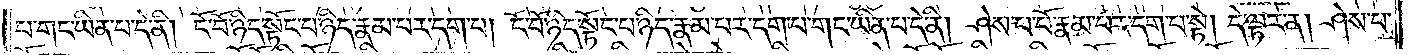པ་གང་ཡིན་པ་དེ་ནི། ངོ་བོ་ཉིད་སྟོང་པ་ཉིད་རྣམ་པར་དག་པ། ངོ་བོ་ཉིད་སྟོང་པ་ཉིད་རྣམ་པར་དག་པ་གང་ཡིན་པ་དེ་ནི། ཤེས་པ་པོ་རྣམ་པར་དག་པ་སྟེ། དེ་ལྟར་ན། ཤེས་པ་
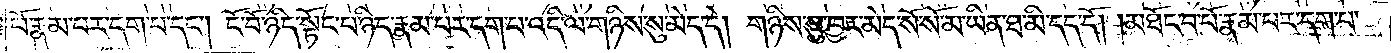པོ་རྣམ་པར་དག་པ་དང༌། ངོ་བོ་ཉིད་སྟོང་པ་ཉིད་རྣམ་པར་དག་པ་འདི་ལ་གཉིས་སུ་མེད་དེ། གཉིས་སུ་བྱར་མེད་སོ་སོ་མ་ཡིན་ཐ་མི་དད་དོ། །མཐོང་བ་པོ་རྣམ་པར་དག་པ་
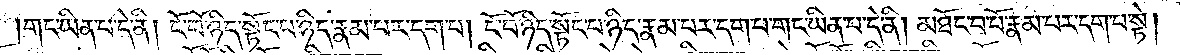གང་ཡིན་པ་དེ་ནི། ངོ་བོ་ཉིད་སྟོང་པ་ཉིད་རྣམ་པར་དག་པ། ངོ་བོ་ཉིད་སྟོང་པ་ཉིད་རྣམ་པར་དག་པ་གང་ཡིན་པ་དེ་ནི། མཐོང་བ་པོ་རྣམ་པར་དག་པ་སྟེ།
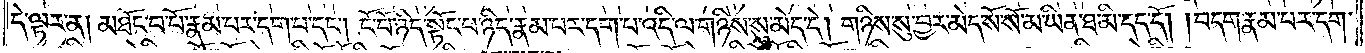དེ་ལྟར་ན། མཐོང་བ་པོ་རྣམ་པར་དག་པ་དང༌། ངོ་བོ་ཉིད་སྟོང་པ་ཉིད་རྣམ་པར་དག་པ་འདི་ལ་གཉིས་སུ་མེད་དེ། གཉིས་སུ་བྱར་མེད་སོ་སོ་མ་ཡིན་ཐ་མི་དད་དོ། །བདག་རྣམ་པར་དག་
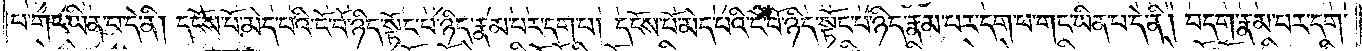པ་གང་ཡིན་པ་དེ་ནི། དངོས་པོ་མེད་པའི་ངོ་བོ་ཉིད་སྟོང་པ་ཉིད་རྣམ་པར་དག་པ། དངོས་པོ་མེད་པའི་ངོ་བོ་ཉིད་སྟོང་པ་ཉིད་རྣམ་པར་དག་པ་གང་ཡིན་པ་དེ་ནི། བདག་རྣམ་པར་དག་
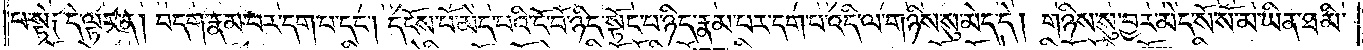པ་སྟེ། དེ་ལྟར་ན། བདག་རྣམ་པར་དག་པ་དང༌། དངོས་པོ་མེད་པའི་ངོ་བོ་ཉིད་སྟོང་པ་ཉིད་རྣམ་པར་དག་པ་འདི་ལ་གཉིས་སུ་མེད་དེ། གཉིས་སུ་བྱར་མེད་སོ་སོ་མ་ཡིན་ཐ་མི་
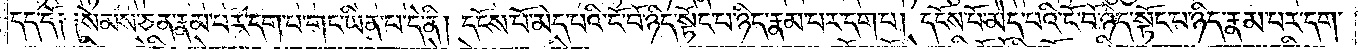དད་དོ། །སེམས་ཅན་རྣམ་པར་དག་པ་གང་ཡིན་པ་དེ་ནི། དངོས་པོ་མེད་པའི་ངོ་བོ་ཉིད་སྟོང་པ་ཉིད་རྣམ་པར་དག་པ། དངོས་པོ་མེད་པའི་ངོ་བོ་ཉིད་སྟོང་པ་ཉིད་རྣམ་པར་དག་
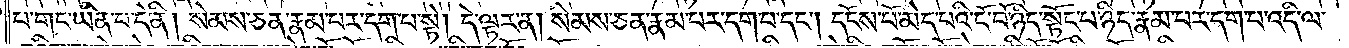པ་གང་ཡིན་པ་དེ་ནི། སེམས་ཅན་རྣམ་པར་དག་པ་སྟེ། དེ་ལྟར་ན། སེམས་ཅན་རྣམ་པར་དག་པ་དང༌། དངོས་པོ་མེད་པའི་ངོ་བོ་ཉིད་སྟོང་པ་ཉིད་རྣམ་པར་དག་པ་འདི་ལ་
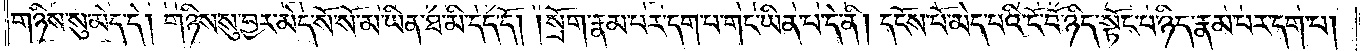གཉིས་སུ་མེད་དེ། གཉིས་སུ་བྱར་མེད་སོ་སོ་མ་ཡིན་ཐ་མི་དད་དོ། །སྲོག་རྣམ་པར་དག་པ་གང་ཡིན་པ་དེ་ནི། དངོས་པོ་མེད་པའི་ངོ་བོ་ཉིད་སྟོང་པ་ཉིད་རྣམ་པར་དག་པ།
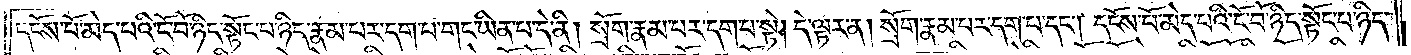དངོས་པོ་མེད་པའི་ངོ་བོ་ཉིད་སྟོང་པ་ཉིད་རྣམ་པར་དག་པ་གང་ཡིན་པ་དེ་ནི། སྲོག་རྣམ་པར་དག་པ་སྟེ། དེ་ལྟར་ན། སྲོག་རྣམ་པར་དག་པ་དང༌། དངོས་པོ་མེད་པའི་ངོ་བོ་ཉིད་སྟོང་པ་ཉིད་
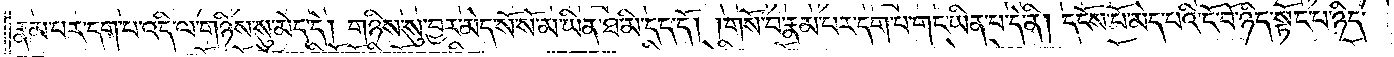རྣམ་པར་དག་པ་འདི་ལ་གཉིས་སུ་མེད་དེ། གཉིས་སུ་བྱར་མེད་སོ་སོ་མ་ཡིན་ཐ་མི་དད་དོ། །གསོ་བ་རྣམ་པར་དག་པ་གང་ཡིན་པ་དེ་ནི། དངོས་པོ་མེད་པའི་ངོ་བོ་ཉིད་སྟོང་པ་ཉིད་
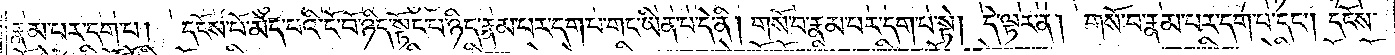རྣམ་པར་དག་པ། དངོས་པོ་མེད་པའི་ངོ་བོ་ཉིད་སྟོང་པ་ཉིད་རྣམ་པར་དག་པ་གང་ཡིན་པ་དེ་ནི། གསོ་བ་རྣམ་པར་དག་པ་སྟེ། དེ་ལྟར་ན། གསོ་བ་རྣམ་པར་དག་པ་དང༌། དངོས་
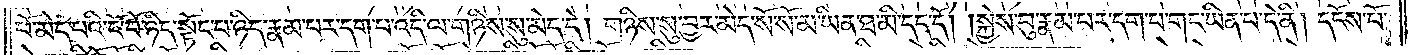པོ་མེད་པའི་ངོ་བོ་ཉིད་སྟོང་པ་ཉིད་རྣམ་པར་དག་པ་འདི་ལ་གཉིས་སུ་མེད་དེ། གཉིས་སུ་བྱར་མེད་སོ་སོ་མ་ཡིན་ཐ་མི་དད་དོ། །སྐྱེས་བུ་རྣམ་པར་དག་པ་གང་ཡིན་པ་དེ་ནི། དངོས་པོ་
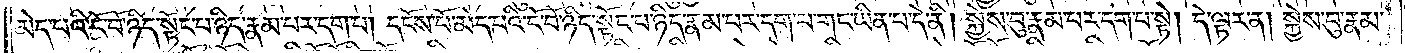མེད་པའི་ངོ་བོ་ཉིད་སྟོང་པ་ཉིད་རྣམ་པར་དག་པ། དངོས་པོ་མེད་པའི་ངོ་བོ་ཉིད་སྟོང་པ་ཉིད་རྣམ་པར་དག་པ་གང་ཡིན་པ་དེ་ནི། སྐྱེས་བུ་རྣམ་པར་དག་པ་སྟེ། དེ་ལྟར་ན། སྐྱེས་བུ་རྣམ་
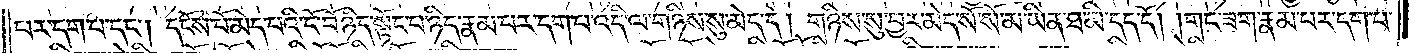པར་དག་པ་དང༌། དངོས་པོ་མེད་པའི་ངོ་བོ་ཉིད་སྟོང་པ་ཉིད་རྣམ་པར་དག་པ་འདི་ལ་གཉིས་སུ་མེད་དེ། གཉིས་སུ་བྱར་མེད་སོ་སོ་མ་ཡིན་ཐ་མི་དད་དོ། །གང་ཟག་རྣམ་པར་དག་པ་
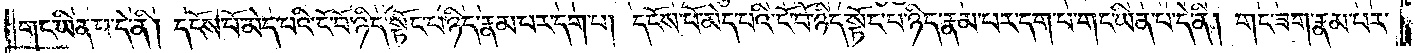གང་ཡིན་པ་དེ་ནི། དངོས་པོ་མེད་པའི་ངོ་བོ་ཉིད་སྟོང་པ་ཉིད་རྣམ་པར་དག་པ། དངོས་པོ་མེད་པའི་ངོ་བོ་ཉིད་སྟོང་པ་ཉིད་རྣམ་པར་དག་པ་གང་ཡིན་པ་དེ་ནི། གང་ཟག་རྣམ་པར་
